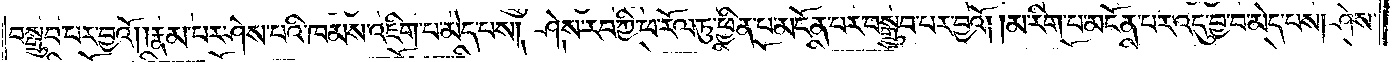བསྒྲུབ་པར་བྱའོ། །རྣམ་པར་ཤེས་པའི་ཁམས་འཇིག་པ་མེད་པས། ཤེས་རབ་ཀྱི་ཕ་རོལ་ཏུ་ཕྱིན་པ་མངོན་པར་བསྒྲུབ་པར་བྱའོ། །མ་རིག་པ་མངོན་པར་འདུ་བྱ་བ་མེད་པས། ཤེས་
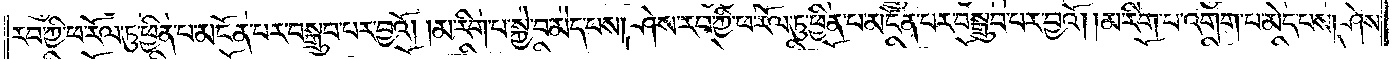རབ་ཀྱི་ཕ་རོལ་ཏུ་ཕྱིན་པ་མངོན་པར་བསྒྲུབ་པར་བྱའོ། །མ་རིག་པ་སྐྱེ་བ་མེད་པས། ཤེས་རབ་ཀྱི་ཕ་རོལ་ཏུ་ཕྱིན་པ་མངོན་པར་བསྒྲུབ་པར་བྱའོ། །མ་རིག་པ་འགག་པ་མེད་པས། ཤེས་
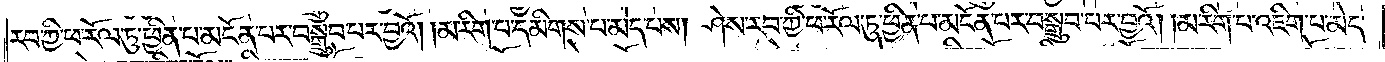རབ་ཀྱི་ཕ་རོལ་ཏུ་ཕྱིན་པ་མངོན་པར་བསྒྲུབ་པར་བྱའོ། །མ་རིག་པ་དམིགས་པ་མེད་པས། ཤེས་རབ་ཀྱི་ཕ་རོལ་ཏུ་ཕྱིན་པ་མངོན་པར་བསྒྲུབ་པར་བྱའོ། །མ་རིག་པ་འཇིག་པ་མེད་
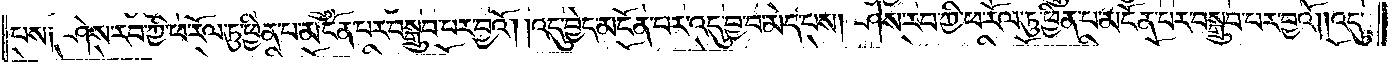པས༑ ཤེས་རབ་ཀྱི་ཕ་རོལ་ཏུ་ཕྱིན་པ་མངོན་པར་བསྒྲུབ་པར་བྱའོ། །འདུ་བྱེད་མངོན་པར་འདུ་བྱ་བ་མེད་པས། ཤེས་རབ་ཀྱི་ཕ་རོལ་ཏུ་ཕྱིན་པ་མངོན་པར་བསྒྲུབ་པར་བྱའོ། །འདུ་
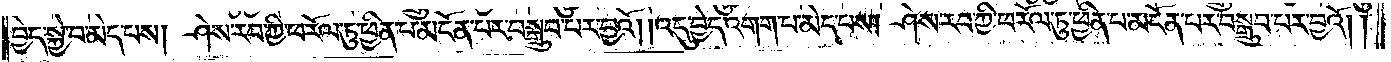བྱེད་སྐྱེ་བ་མེད་པས། ཤེས་རབ་ཀྱི་ཕ་རོལ་ཏུ་ཕྱིན་པ་མངོན་པར་བསྒྲུབ་པར་བྱའོ། །འདུ་བྱེད་འགག་པ་མེད་པས། ཤེས་རབ་ཀྱི་ཕ་རོལ་ཏུ་ཕྱིན་པ་མངོན་པར་བསྒྲུབ་པར་བྱའོ། །
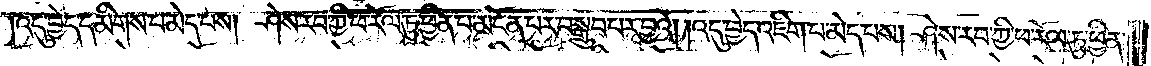འདུ་བྱེད་དམིགས་པ་མེད་པས། ཤེས་རབ་ཀྱི་ཕ་རོལ་ཏུ་ཕྱིན་པ་མངོན་པར་བསྒྲུབ་པར་བྱའོ། །འདུ་བྱེད་འཇིག་པ་མེད་པས། ཤེས་རབ་ཀྱི་ཕ་རོལ་ཏུ་ཕྱིན་
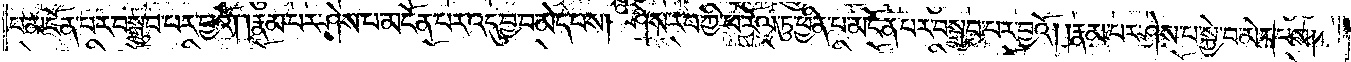པ་མངོན་པར་བསྒྲུབ་པར་བྱའོ། །རྣམ་པར་ཤེས་པ་མངོན་པར་འདུ་བྱ་བ་མེད་པས། ཤེས་རབ་ཀྱི་ཕ་རོལ་ཏུ་ཕྱིན་པ་མངོན་པར་བསྒྲུབ་པར་བྱའོ། །རྣམ་པར་ཤེས་པ་སྐྱེ་བ་མེད་པས།
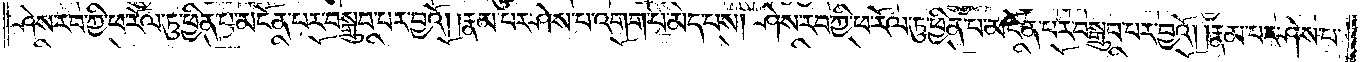ཤེས་རབ་ཀྱི་ཕ་རོལ་ཏུ་ཕྱིན་པ་མངོན་པར་བསྒྲུབ་པར་བྱའོ། །རྣམ་པར་ཤེས་པ་འགག་པ་མེད་པས། ཤེས་རབ་ཀྱི་ཕ་རོལ་ཏུ་ཕྱིན་པ་མངོན་པར་བསྒྲུབ་པར་བྱའོ། །རྣམ་པར་ཤེས་པ་
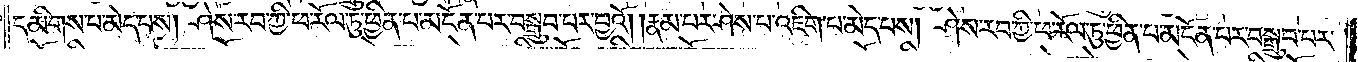དམིགས་པ་མེད་པས། ཤེས་རབ་ཀྱི་ཕ་རོལ་ཏུ་ཕྱིན་པ་མངོན་པར་བསྒྲུབ་པར་བྱའོ། །རྣམ་པར་ཤེས་པ་འཇིག་པ་མེད་པས། ཤེས་རབ་ཀྱི་ཕ་རོལ་ཏུ་ཕྱིན་པ་མངོན་པར་བསྒྲུབ་པར་
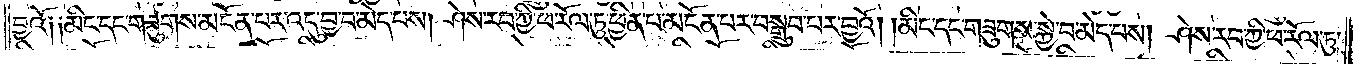བྱའོ༑ ༑མིང་དང་གཟུགས་མངོན་པར་འདུ་བྱ་བ་མེད་པས། ཤེས་རབ་ཀྱི་ཕ་རོལ་ཏུ་ཕྱིན་པ་མངོན་པར་བསྒྲུབ་པར་བྱའོ། །མིང་དང་གཟུགས་སྐྱེ་བ་མེད་པས། ཤེས་རབ་ཀྱི་ཕ་རོལ་ཏུ་
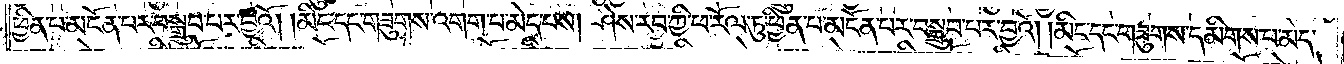ཕྱིན་པ་མངོན་པར་བསྒྲུབ་པར་བྱའོ། །མིང་དང་གཟུགས་འགག་པ་མེད་པས། ཤེས་རབ་ཀྱི་ཕ་རོལ་ཏུ་ཕྱིན་པ་མངོན་པར་བསྒྲུབ་པར་བྱའོ། །མིང་དང་གཟུགས་དམིགས་པ་མེད་
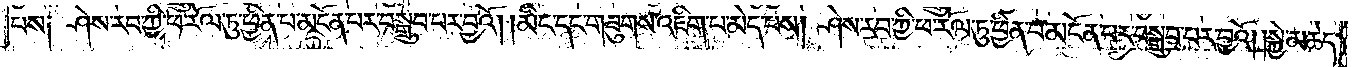པས༑ ཤེས་རབ་ཀྱི་ཕ་རོལ་ཏུ་ཕྱིན་པ་མངོན་པར་བསྒྲུབ་པར་བྱའོ། །མིང་དང་གཟུགས་འཇིག་པ་མེད་པས། ཤེས་རབ་ཀྱི་ཕ་རོལ་ཏུ་ཕྱིན་པ་མངོན་པར་བསྒྲུབ་པར་བྱའོ། །སྐྱེ་མཆེད་
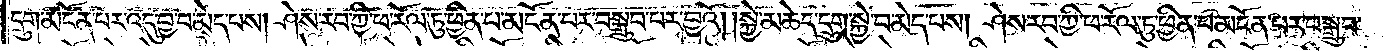དྲུག་མངོན་པར་འདུ་བྱ་བ་མེད་པས། ཤེས་རབ་ཀྱི་ཕ་རོལ་ཏུ་ཕྱིན་པ་མངོན་པར་བསྒྲུབ་པར་བྱའོ། །སྐྱེ་མཆེད་དྲུག་སྐྱེ་བ་མེད་པས། ཤེས་རབ་ཀྱི་ཕ་རོལ་ཏུ་ཕྱིན་པ་མངོན་པར་བསྒྲུབ་
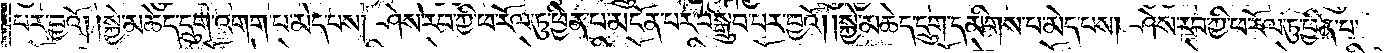པར་བྱའོ། །སྐྱེ་མཆེད་དྲུག་འགག་པ་མེད་པས། ཤེས་རབ་ཀྱི་ཕ་རོལ་ཏུ་ཕྱིན་པ་མངོན་པར་བསྒྲུབ་པར་བྱའོ། །སྐྱེ་མཆེད་དྲུག་དམིགས་པ་མེད་པས། ཤེས་རབ་ཀྱི་ཕ་རོལ་ཏུ་ཕྱིན་པ་
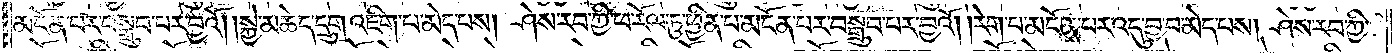མངོན་པར་བསྒྲུབ་པར་བྱའོ། །སྐྱེ་མཆེད་དྲུག་འཇིག་པ་མེད་པས། ཤེས་རབ་ཀྱི་ཕ་རོལ་ཏུ་ཕྱིན་པ་མངོན་པར་བསྒྲུབ་པར་བྱའོ། །རེག་པ་མངོན་པར་འདུ་བྱ་བ་མེད་པས། ཤེས་རབ་ཀྱི་
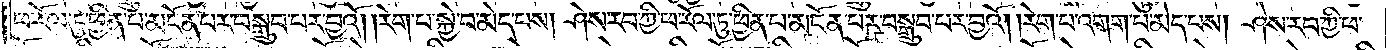ཕ་རོལ་ཏུ་ཕྱིན་པ་མངོན་པར་བསྒྲུབ་པར་བྱའོ། །རེག་པ་སྐྱེ་བ་མེད་པས། ཤེས་རབ་ཀྱི་ཕ་རོལ་ཏུ་ཕྱིན་པ་མངོན་པར་བསྒྲུབ་པར་བྱའོ། །རེག་པ་འགག་པ་མེད་པས། ཤེས་རབ་ཀྱི་ཕ་
